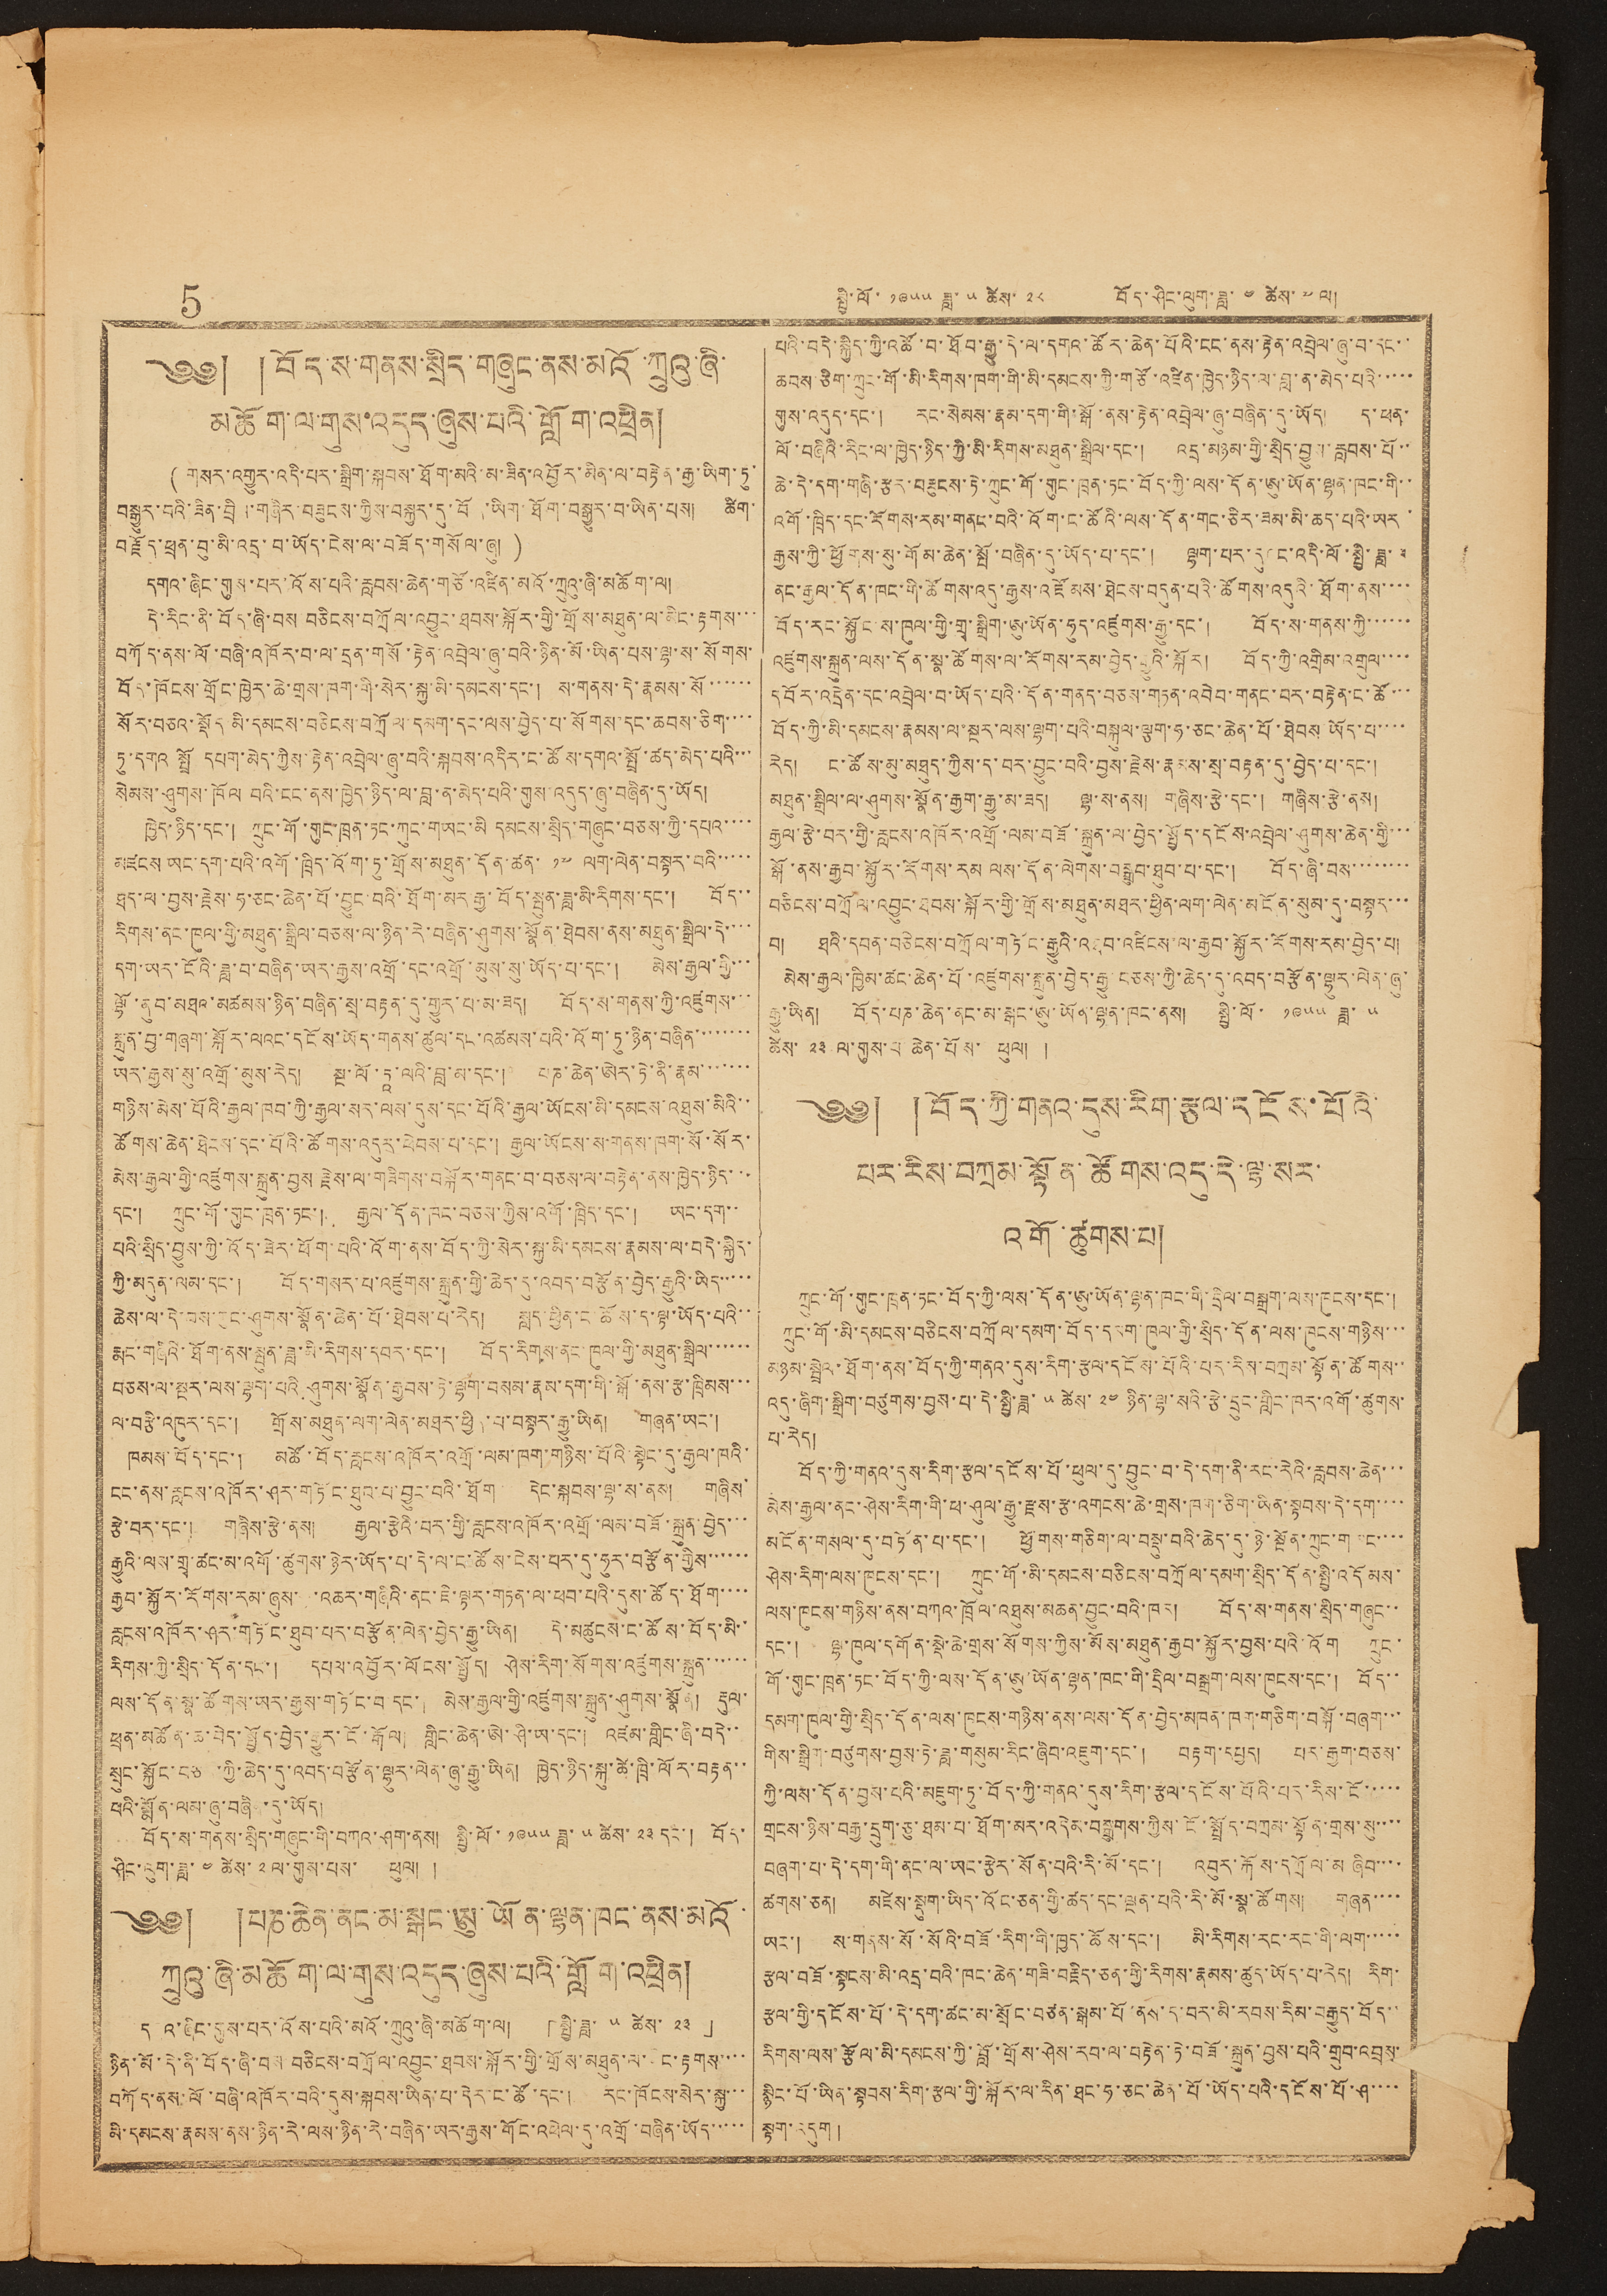5 སྤྱི་ལོ་ ༡༩༥༥ ཟླ་ ༥ ཚེས་ ༢༨ བོད་ཤིང་ལུག་ཟླ་ ༤ ཚེས་ ༧ ལ།
༄༅། །བོད་ས་གནས་སྲིད་གཞུང་ནས་མའོ་ཀྲུའུ་ཞི་
མཆོག་ལ་གུས་འདུད་ཞུས་པའི་གློག་འཕྲིན།
( གསར་འགྱུར་འདི་པར་སྒྲིག་སྐབས་ཐོག་མའི་མ་ཟིན་འབྱོར་མིན་ལ་བརྟེན་རྒྱ་ཡིག་ཏུ་
བསྒྱུར་བའི་ཟིན་བྲིས་གཞིར་བཟུངས་ཀྱིས་བསྐུར་དུ་བོད་ཡིག་ཐོག་བསྒྱུར་བ་ཡིན་པས། ཚིག་
བརྗོད་ཕྲན་བུ་མི་འདྲ་བ་ཡོད་ངེས་ལ་བཟོད་གསོལ་ཞུ། )
དགའ་ཞིང་གུས་པར་འོས་པའི་རླབས་ཆེན་གཙོ་འཛིན་མའོ་ཀྲུའུ་ཞི་མཆོག་ལ།
དེ་རིང་ནི་བོད་ཞི་བས བཅིངས་བཀྲོལ་འབྱུང་ཐབས་སྐོར་གྱི་གྲོས་མཐུན་ལ་མིང་རྟགས་་་
བཀོད་ནས་ལོ་བཞི་འཁོར་བ་ལ་དྲན་གསོ་རྟེན་འབྲེལ་ཞུ་བའི་ཉིན་མོ་ཡིན་པས་ལྷ་ས་སོགས་
བོད་ཁོངས་གྲོང་ཁྱེར་ཆེ་གྲས་ཁག་གི་སེར་སྐྱ་མི་དམངས་དང་། ས་གནས་དེ་རྣམས་སོ་་་་་་
སོར་བཅའ་སྡོད་མི་དམངས་བཅིངས་བཀྲོལ་དམག་དང་ལས་བྱེད་པ་སོགས་དང་ཆབས་ཅིག་་་་
ཏུ་དགའ སྤྲོ དམག་མེད་ཀྱིས་རྟེན་འབྲེལ་ཞུ་བའི་སྐབས་འདིར་ང་ཚོས་དགའ་སྤྲོ་ཚད་མེད་པའི་་་
སེམས་ཤུགས་ཁོལ བའི་ངང་ནས་ཁྱེད་ཉིད་ལ་བླ་ན་མེད་པའི་གུས་འདུད་ཞུ་བཞིན་དུ་ཡོད།
ཁྱེད་ཉིད་དང་། ཀྲུང་གོ་གུང་ཁྲན་ཏང་ཀུང་གཡང་མི དམངས་སྲིད་གཞུང་བཅས་ཀྱི་དཔའ་་་་
མཛངས ཡང་དག་པའི་འགོ་ཁྲིད་འོག་ཏུ་གྲོས་མཐུན་དོན་ཚན་ ༡༧ ལག་ལེན་བསྟར་བའི་་་་་
ཐད་ལ་བྱས་རྗེས་ཧ་ཅང་ཆེན་པོ་བྱུང་བའི་ཐོག་མར་རྒྱ་བོད་སྤུན་ཟླ་མི་རིགས་དང་། བོད་་
རིགས་ནང་ཁུལ་གྱི་མཐུན་སྒྲིལ་བཅས་ལ་ཉིན་རེ་བཞིན་ཤུགས་སྣོན་ཐེབས་ནས་མཐུན་སྒྲིལ་དེ་་་་
དག་ཡར་ངོའི་ཟླ་བ་བཞིན་ཡར་རྒྱས་འགྲོ་དང་འགྲོ་མུས་སུ་ཡོད་པ་དང་། མེས་རྒྱལ་གྱི་་་
ལྷོ་ནུབ་མཐའ་མཚམས་ཉིན་བཞིན་སྲ་བརྟན་དུ་གྱུར་པ་མ་ཟད། བོད་ས་གནས་ཀྱི་འཛུགས་་་
སྐྲུན་བྱ་གཞག་སྐོར་ལའང་དངོས་ཡོད་གནས་ཚུལ་དང་འཚམས་ཕའི་འོག་ཏུ་ཉིན་བཞིན་་་་་་་་
ཡར་རྒྱས་སུ་འགྲོ་མུས་རེད། སྔ་ལོ་ཏཱ་ལའི་བླ་མ་དང་། པཎ་ཆེན་ཨེར་ཏེ་ནི་རྣམ་་་་་་་
གཉིས་མེས་པོའི་རྒྱལ་ཁབ་ཀྱི་རྒྱལ་སར་ལས་དུས་དང་པོའི་རྒྱལ་ཡོངས་མི་དམངས་འཐུས་མིའི་་
ཚོགས་ཆེན་ཐེངས་དང་པོའི་ཚོགས་འདུར་ཕེབས་པ་དང་། རྒྱལ་ཡོངས་ས་གནས་ཁག་སོ་སོར་
མེས་རྒྱལ་གྱི་འཛུགས་སྐྲུན་བྱས རྗེས་ལ་གཟིགས་བསྐོར་གནང་བ་བཅས་ལ་བརྟེན་ནས་ཁྱེད་ཉིད་་་
དང་། ཀྲུང་གོ་གུང་ཁྲན་ཏང་། རྒྱལ་དོན་ཁང་བཅས་ཀྱིས་འགོ་ཁྲིད་དང་། ཡང་དག་་
པའི་སྲིད་བྱུས་ཀྱི་འོད་ཟེར་ཕོག་པའི་འོག་ནས་བོད་ཀྱི་སེར་སྐྱ་མི་དམངས་རྣམས་ལ་བདེ་སྐྱིད་
ཀྱི་མདུན་ལམ་དང་། བོད་གསར་པ་འཛུགས་སྐྲུན་གྱི་ཆེད་དུ་འབད་བརྩོན་བྱེད་རྒྱུའི་ཡིད་་་་་
ཆེས་ལ་དེ་བས་ཀྱང་ཤུགས་སྣོན་ཆེན་པོ་ཐེབས་པ་རེད། སླད་ཕྱིན་ང་ཚོས་ད་ལྟ་ཡོད་པའི་་
རྨང་གཞིའི་ཐོག་ནས་སྤུན་ཟླ་མི་རིགས་དབར་དང་། བོད་རིགས་ནང་ཁུལ་གྱི་མཐུན་སྒྲིལ་་་་་་
བཅས་ལ་སྔར་ལས་ལྷག་པའི ཤུགས་སྣོན་རྒྱབས་ཏེ་ལྷག་བསམ་རྣམ་དག་གི་སྒོ་ནས་རྩ་ཁྲིམས་་་
ལ་བརྩི་འཁུར་དང་། གྲོས་མཐུན་ལག་ལེན་མཐར་ཕྱིན་པ་བསྟར་རྒྱུ་ཡིན། གཞན་ཡང་།
ཁམས་བོད་དང་། མཚོ་བོད་རླངས་འཁོར་འགྲོ་ལམ་ཁག་གཉིས་པོའི་སྟེང་དུ་རྒྱལ་ཁའི་
ངང་ནས་རླངས་འཁོར་ཤར་གཏོང་ཐུབ་པ་བྱུང་བའི་ཐོག དེང་སྐབས་ལྷ་ས་ནས། གཞིས་
རྩེ་བར་དང་། གཞིས་རྩེ་ནས། རྒྱལ་རྩེའི་བར་གྱི་རླངས་འཁོར་འགྲོ་ལམ་བཟོ་སྐྲུན་བྱེད་་་
རྒྱུའི་ལས་གྲྭ་ཚང་མ་འགོ་ཚུགས་ཉེར་ཡོད་པ་དེ་ལ་ང་ཚོས་ངེས་པར་དུ་ཧུར་བརྩོན་གྱིས་་་་་་
རྒྱབ་སྐྱོར་རོགས་རམ་ཞུས་ འཆར་གཞིའི་ནང་ཇི་ལྟར་གཏན་ལ་ཕབ་པའི་དུས་ཚོད་ཐོག་་་་
རླངས་འཁོར་ཤར་གཏོང་ཐུབ་པར་བརྩོན་ལེན་བྱེད་རྒྱུ་ཡིན། དེ་མཚུངས་ང་ཚོས་བོད་མི་་
རིགས་ཀྱི་སྲིད་དོན་དང་། དཔལ་འབྱོར་ལོངས་སྤྱོད། ཤེས་རིག་སོགས་འཛུགས་སྐྲུན་་་་་་
ལས་དོན་སྣ་ཚོགས་ཡར་རྒྱས་གཏོང་བ་དང་། མེས་རྒྱལ་གྱི་འཛུགས་སྐྲུན་ཤུགས་སྣོན། རྡུལ་
ཕྲན་མཚོན་ཆ་བེད་སྤྱོད་བྱེད་རྒྱུར་ངོ་རྒོལ། གླིང་ཆེན་ཨེ་ཤི་ཡ་དང་། འཛམ་གླིང་ཞི་བདེ་་
སྲུང་སྐྱོང་བཅས་ཀྱི་ཆེད་དུ་འབད་བརྩོན་ལྷུར་ལེན་ཞུ་རྒྱུ་ཡིན། ཁྱེད་ཉིད་སྐུ་ཚེ་ཁྲི་ལོར་བརྟན་་
པའི་སྨོན་ལམ་ཞུ་བཞིན་དུ་ཡོད།
བོད་ས་གནས་སྲིད་གཞུང་གི་བཀའ་ཤག་ནས། སྤྱི་ལོ་ ༡༩༥༥ ཟླ་ ༥ ཚེས་ ༢༣ དང་། བོད་
ཤིང་ལུག་ཟླ་ ༤ ཚེས་ ༢ ལ་གུས་པས་ ཕུལ། །
༄༅། །པཎ་ཆེན་ནང་མ་སྒང་ཨུ་ཡོན་ལྷན་ཁང་ནས་མའོ་
ཀྲུའུ་ཞི་མཆོག་ལ་གུས་འདུད་ཞུས་པའི་གློག་འཕྲིན།
དཔའ་ཞིང་གུས་པར་འོས་པའི་མའོ་ཀྲུའུ་ཞི་མཆོག་ལ། 「སྤྱི་ཟླ་ ༥ ཚེས་ ༢༣」
ཉིན་མོ་དེ་ནི་བོད་ཞི་བས་བཅིངས་བཀྲོལ་འབྱུང་ཐབས་སྐོར་གྱི་གྲོས་མཐུན་ལ་ ང་རྟགས་་་་
བཀོད་ནས་ལོ་བཞི་འཁོར་བའི་དུས་སྐབས་ཡིན་པ་དེར་ང་ཚོ་དང་། རང་ཁོངས་སེར་སྐྱ་་་
མི་དམངས་རྣམས་ནས་ཉིན་རེ་ལས་ཉིན་རེ་བཞིན་ཡར་རྒྱས་གོང་འཕེལ་དུ་འགྲོ་བཞིན་ཡོད་་་་་
པའི་བདེ་སྐྱིད་ཀྱི་འཚོ་བ་ཐོབ་རྒྱུ་དེ་ལ་དགའ་ཚོར་ཆེན་པོའི་ངང་ནས་རྟེན་འབྲེལ་ཞུ་བ་དང་་
ཆབས་ཅིག་ཀྲུང་གོ་མི་རིགས་ཁག་གི་མི་དམངས་ཀྱི་གཙོ་འཛིན་ཁྱེད་ཉིས་ལ་བླ་ན་མེད་པའི་་་་་
གུས་འདུད་དང་། རང་སེམས་རྣམ་དག་གི་སྒོ་ནས་རྟེན་འབྲེལ་ཞུ་བཞིན་དུ་ཡོད། ད་ཕན་
ལོ་བཞིའི་རིང་ལ་ཁྱེད་ཉིད་ཀྱི་མི་རིགས་མཐུན་སྒྲིལ་དང་། འདྲ་མཉམ་གྱི་སྲིད་བྱུས་རླབས་པོ་་
ཆེ་དེ་དག་གཞི་རྩར་བཟུངས་ཏེ་ཀྲུང་གོ་གུང་ཁྲན་ཏང་བོད་ཀྱི་ལས་དོན་ཨུ་ཡོན་ལྷན་ཁང་གི་
འགོ་ཁྲིད་དང་རོགས་རམ་གནང་བའི་འོག་ང་ཚོའི་ལས་དོན་གང་ཅིར་ཟམ་མི་ཆད་པའི་ཡར་
རྒྱས་ཀྱི་ཕྱོགས་སུ་གོམ་ཆེན་སྤོ་བཞིན་དུ་ཡོད་པ་དང་། ལྷག་པར་དུའང་འདི་ལོ་སྤྱི་ཟླ་༣
ནང་རྒྱལ་དོན་ཁང་གི་ཚོགས་འདུ་རྒྱས་འཛོམས་ཐེངས་བདུན་པའི་ཚོགས་འདུའི་ཐོག་ནས་་་་
བོད་རང་སྐྱོང ས་ཁུལ་གྱི་གྲྭ་སྒྲིག་ཨུ་ཡོན་ཧུད་འཛུགས་རྒྱུ་དང་། བོད་ས་གནས་ཀྱི་་་་་་
འཛུགས་སྐྲུན་ལས་དོན་སྣ་ཚོགས་ལ་རོགས་རམ་བྱེད་རྒྱུའི་སྐོར། བོད་ཀྱི་འགྲིམ་འགྲུལ་་་་
དབོར་འདྲེན་དང་འབྲེལ་བ་ཡོད་པའི་དོན་གནད་བཅས་གཏན་འབེབ་གནང་བར་བརྟེན་ང་ཚོ་་་
བོད་ཀྱི་མི་དམངས་རྣམས་ལ་སྔར་ལས་ལྷག་པའི་བསྐུལ་ལྕག་ཧ་ཅང་ཆེན་པོ་ཐེབས་ཡོད་པ་་་་
རེད། ང་ཚོས་མུ་མཐུད་ཀྱིས་ད་བར་བྱུང་བའི་བྱས་རྗེས་རྣམས་སྲ་བརྟན་དུ་བྱེད་པ་དང་།
མཐུན་སྒྲིལ་ལ་ཤུགས་སྣོན་རྒྱག་རྒྱུ་མ་ཟད། ལྷ་ས་ནས། གཞིས་རྩེ་དང་། གཞིས་རྩེ་ནས།
རྒྱལ་རྩེ་བར་གྱི་རླངས་འཁོར་འགྲོ་ལམ་བཟོ་སྐྲུན་ལ་བྱེད་སྤྱོད་དངོས་འབྲེལ་ཤུགས་ཆེན་གྱི་་་
སྒོ་ནས་རྒྱབ་སྐྱོར་རོགས་རམ་ལས་དོན་ལེགས་བསྒྲུབ་ཐུབ་པ་དང་། བོད་ཞི་བས་་་་་་་་
བཅིངས་བཀྲོལ་འབྱུང་ཐབས་སྐོར་གྱི་གྲོས་མཐུན་མཐར་ཕྱིན་ལག་ལེན་མངོན་སུམ་དུ་བསྟར་་་
བ། ཐའི་དབན་བཅིངས་བཀྲོལ་གཏོང་རྒྱུའི་འཐབ་འཛིངས་ལ་རྒྱབ་སྐྱོར་རོགས་རམ་བྱེད་པ།
མེས་རྒྱལ་ཁྱིམ་ཚང་ཆེན་པོ་འཛུགས་སྐྲུན་བྱེད་རྒྱུ་བཅས་ཀྱི་ཆེད་དུ་འབད་བརྩོན་ལྷུར་ལེན་ཞུ་
རྒྱུ་ཡིན། བོད་པཎ་ཆེན་ནང་མ་སྒང་ཨུ་ཡོན་ལྷན་ཁང་ནས། སྤྱི་ལོ་ ༡༩༥༥ ཟླ་ ༥
ཚེས་ ༢༣ ལ་གུས་པ་ཆེན་པོས་ཕུལ། །
༄༅། །བོད་ཀྱི་གནའ་དུས་རིག་རྩལ་དངོས་པོའི་
པར་རིས་བཀྲམ་སྟོན་ཚོགས་འདུ་དེ་ལྷ་སར་
འགོ་ཚུགས་པ།
ཀྲུང་གོ་གུང་ཁྲན་ཏང་བོད་ཀྱི་ལས་དོན་ཨུ་ཡོན་ལྷན་ཁང་གི་དྲིལ་བསྒྲག་ལས་ཁུངས་དང་།
ཀྲུང་གོ་མི་དམངས་བཅིངས་བཀྲོལ་དམག་བོད་དམག་ཁུལ་གྱི་སྲིད་དོན་ལས་ཁུངས་གཉིས་་་
མཉམ་སྦྲེལ་ཐོག་ནས་བོད་ཀྱི་གནའ་དུས་རིག་རྩལ་དངོས་པོའི་པར་རིས་བཀྲམ་སྟོན་ཚོགས་་
འདུ་ཞིག་སྒྲིག་བཙུགས་བྱས་པ་དེ་སྤྱི་ཟླ་ ༥ ཚེས་ ༢༤ ཉིན་ལྷ་སའི་རྩེ་དྲུང་གླིང་ཁར་འགོ་ཚུགས་
པ་རེད།
བོད་ཀྱི་གནའ་དུས་རིག་རྩལ་དངོས་པོ་ཕུལ་དུ་བྱུང་བ་དེ་དག་ནི་རང་རེའི་རླབས་ཆེན་་་
མེས་རྒྱལ་ནང་ཤེས་རིག་གི་ཕ་ཤུལ་རྒྱུ་རྫས་རྩ་འགངས་ཆེ་གྲས་ཁག་ཅིག་ཡིན་སྟབས་དེ་དག་་་
མངོན་གསལ་དུ་བཏོན་པ་དང་། ཕྱོགས་གཅིག་ལ་བསྡུ་བའི་ཆེད་དུ་ཉེ་སྔོན་ཀྲུང་གཡང་་་་
ཤེས་རིག་ལས་ཁུངས་དང་། ཀྲུང་གོ་མི་དམངས་བཅིངས་བཀྲོལ་དམག་སྲིད་དོན་སྤྱི་འདོམས་
ལས་ཁུངས་གཉིས་ནས་བཀའ་ཁྲོལ་འཐུས་མཆན་བྱུང་བའི་ཁར། བོད་ས་གནས་སྲིད་གཞུང་་
དང་། ལྷ་ཁུལ་དགོན་སྡེ་ཆེ་གྲས་སོགས་ཀྱིས་མོས་མཐུན་རྒྱབ་སྐྱོར་བྱས་པའི་འོག ཀྲུང་
གོ་གུང་ཁྲན་ཏང་བོད་ཀྱི་ལས་དོན་ཨུ་ཡོན་ལྷན་ཁང་གི་དྲིལ་བསྒྲག་ལས་ཁུངས་དང་། བོད་་
དམག་ཁུལ་གྱི་སྲིད་དོན་ལས་ཁུངས་གཉིས་ནས་ལས་དོན་བྱེད་མཁན་ཁག་གཅིག་བསྐོ་བཞག་་་
གིས་སྒྲིག་བཙུགས་བྱས་ཏེ་ཟླ་གསུམ་རིང་ཞིབ་འཇུག་དང་། བརྟག་དཔྱད། པར་རྒྱག་བཅས་
ཀྱི་ལས་དོན་བྱས་པའི་མཇུག་ཏུ་བོད་ཀྱི་གནའ་དུས་རིག་རྩལ་དངོས་པོའི་པར་རིས་ངོ་་་་་
གྲངས་ཉིས་བརྒྱ་དྲུག་ཅུ་ཐམ་པ་ཐོག་མར་འདེམ་བསྒྲུགས་ཀྱིས་ངོ་སྤྲོད་བཀྲམ་སྟོན་གྲས་སུ་་་་
བཞག་པ་དེ་དག་གི་ནང་ལ་ཡང་རྩེར་སོན་པའི་རི་མོ་དང་། འབུར་རྐོས་དཀྲོལ་མ ཞིབ་་་་
ཚགས་ཅན། མཛེས་སྡུག་ཡིད་འོང་ཅན་གྱི་ཚད་དང་ལྡན་པའི་རི་མོ་སྣ་ཚོགས། གཞན་་་་
ཡང་། ས་གནས་སོ་སོའི་བཟོ་རིག་གི་ཁྱད་ཆོས་དང་། མི་རིགས་རང་རང་གི་ལག་་་་་
རྩལ་བཟོ་སྟངས་མི་འདྲ་བའི་ཁང་ཆེན་གཟི་བརྗིད་ཅན་གྱི་རིགས་རྣམས་ཚུད་ཡོད་པ་རེད། རིག་
རྩལ་གྱི་དངོས་པོ་དེ་དག་ཚང་མ་སྲོང་བཙན་སྒམ་པོ་ནས་ད་བར་མི་རབས་རིམ་བརྒྱུད་བོད་་
རིགས་ལས་རྩོལ་མི་དམངས་ཀྱི་བློ་གྲོས་ཤེས་རབ་ལ་བརྟེན་ཏེ་བཟོ་སྐྲུན་བྱས་པའི་གྲུབ་འབྲས་
སྙིང་པོ་ཡིན་སྟབས་རིག་རྩལ་གྱི་སྐོར་ལ་རིན་ཐང་ཧ་ཅང་ཆེན་པོ་ཡོད་པའི་དངོས་པོ་ཤ་་་་
སྟག་འདུག།།
